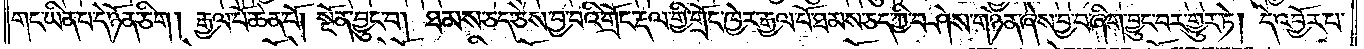གང་ཡིན་པ་དེ་ཉོན་ཅིག །རྒྱལ་པོ་ཆེན་པོ། སྔོན་བྱུང་བ། ཐམས་ཅད་ཅེས་བྱ་བའི་གྲོང་རྡལ་གྱི་གྲོང་ཁྱེར་རྒྱལ་པོ་ཐམས་ཅད་ཀྱི་བཤེས་གཉེན་ཞེས་བྱ་བ་ཞིག་བྱུང་བར་གྱུར་ཏེ། དེ་འབྱོར་པ་
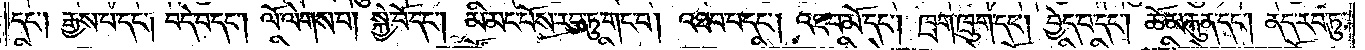དང༌། རྒྱས་པ་དང༌། བདེ་བ་དང༌། ལོ་ལེགས་པ། སྐྱེ་བོ་དང༌། མི་མང་པོས་རབ་ཏུ་གང་བ། འཐབ་པ་དང༌། འཐབ་མོ་དང༌། ཁྲག་ཁྲུག་དང༌། བྱེད་པ་དང༌། ཆོམ་རྐུན་དང༌། ནད་རབ་ཏུ་
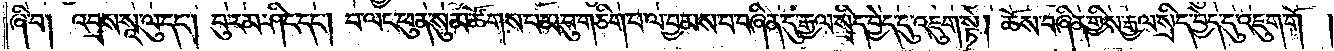ཞི་བ། འབྲས་སཱ་ལུ་དང༌། བུ་རམ་ཤིང་དང༌། བ་ལང་ཕུན་སུམ་ཚོགས་པ་མ་བུ་གཅིག་པ་ལ་བྱམས་པ་བཞིན་དུ་རྒྱལ་སྲིད་བྱེད་དུ་འཇུག་སྟེ། ཆོས་བཞིན་གྱིས་རྒྱལ་སྲིད་བྱེད་དུ་འཇུག་གོ།
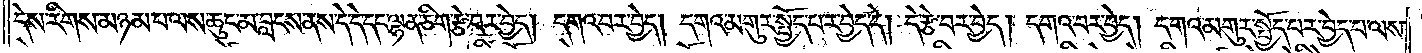དེས་རིགས་མཉམ་པ་ལས་ཆུང་མ་བླངས་ནས་དེ་དེ་དང་ལྷན་ཅིག་རྩེ་བར་བྱེད། དགའ་བར་བྱེད། དགའ་མགུར་སྤྱོད་པར་བྱེད་དེ། དེ་རྩེ་བར་བྱེད། དགའ་བར་བྱེད། དགའ་མགུར་སྤྱོད་པར་བྱེད་པ་ལས་
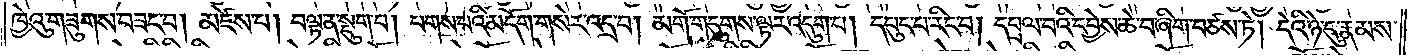ཁྱེའུ་གཟུགས་བཟང་བ། མཛེས་པ། བལྟ་ན་སྡུག་པ། པགས་པའི་མདོག་གསེར་འདྲ་བ། མགོ་གདུགས་ལྟར་འདུག་པ། དཔུང་པ་རིང་བ། དཔྲལ་བའི་དབྱེས་ཆེ་བ་ཞིག་བཙས་ཏེ། དེའི་ཉེ་དུ་རྣམས་
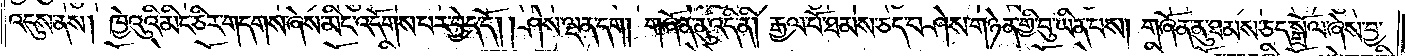འདུས་ནས། ཁྱེའུའི་མིང་ཅིར་གདགས་ཞེས་མིང་འདོགས་པར་བྱེད་དོ། །ཤེས་ལྡན་དག །གཞོན་ནུ་འདི་ནི། རྒྱལ་པོ་ཐམས་ཅད་བཤེས་གཉེན་གྱི་བུ་ཡིན་པས། གཞོན་ནུ་ཐམས་ཅད་སྒྲོལ་ཞེས་བྱ་
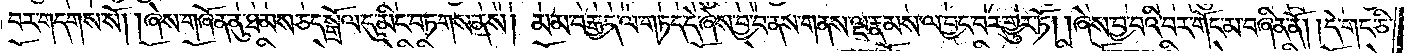བར་གདགས་སོ། །ཞེས་གཞོན་ནུ་ཐམས་ཅད་སྒྲོལ་དུ་མིང་བཏགས་ནས། མ་མ་བརྒྱད་ལ་གཏད་དེ་ཞེས་བྱ་བ་ནས་གནས་ལྔ་རྣམས་ལ་བྱང་བར་གྱུར་ཏོ། །ཞེས་བྱ་བའི་བར་གོང་མ་བཞིན་ནོ། །དེ་གང་ཅི་
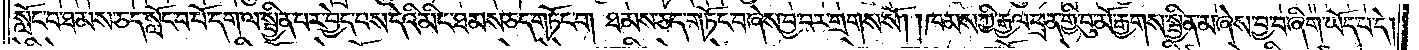སློང་བ་ཐམས་ཅད་སློང་བ་པོ་དག་ལ་སྦྱིན་པར་བྱེད་པས་དེའི་མིང་ཐམས་ཅད་གཏོང་བ། ཐམས་ཅད་གཏོང་བ་ཞེས་བྱ་བར་གྲགས་སོ། །ཁམས་ཀྱི་རྒྱལ་ཕྲན་གྱི་བུ་མོ་རྒྱགས་སྦྱིན་མ་ཞེས་བྱ་བ་ཞིག་ཡོད་པ་དེ།
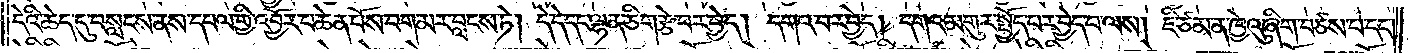དེའི་ཆེད་དུ་བསླངས་ནས་དཔལ་གྱི་འབྱོར་པ་ཆེན་པོས་བག་མར་བླངས་ཏེ། དེ་དེ་དང་ལྷན་ཅིག་རྩེ་བར་བྱེད། དགའ་བར་བྱེད། དགའ་མགུར་སྤྱོད་པར་བྱེད་པ་ལས། ཇི་ཙམ་ན་ཁྱེའུ་ཞིག་བཙས་པ་དང༌།
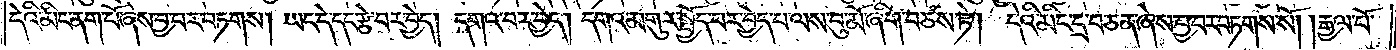དེའི་མིང་ནག་པོ་ཞེས་བྱ་བར་བཏགས། ཡང་དེ་དང་རྩེ་བར་བྱེད། དགའ་བར་བྱེད། དགའ་མགུར་སྤྱོད་པར་བྱེད་པ་ལས་བུ་མོ་ཞིག་བཙས་ཏེ། དེའི་མིང་དྲ་བ་ཅན་ཞེས་བྱ་བར་བཏགས་སོ། །རྒྱལ་པོ་
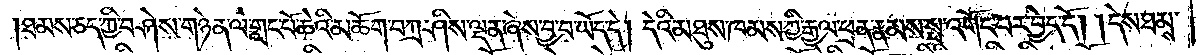ཐམས་ཅད་ཀྱི་བཤེས་གཉེན་ལ་གླང་པོ་ཆེའི་མཆོག་བཀྲ་ཤིས་ལྡན་ཞེས་བྱ་བ་ཡོད་དེ། དེའི་མཐུས་ཁམས་ཀྱི་རྒྱལ་ཕྲན་རྣམས་སྤ་འགོང་བར་བྱེད་དོ། །དེས་ཐམས་
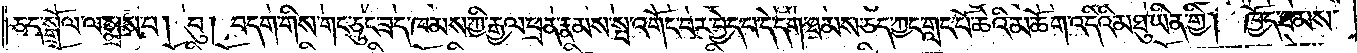ཅད་སྒྲོལ་ལ་སྨྲས་པ། བུ། བདག་གིས་གང་ཅུང་ཟད་ཁམས་ཀྱི་རྒྱལ་ཕྲན་རྣམས་སྤ་འགོང་བར་བྱེད་པ་དེ་དག་ཐམས་ཅད་ཀྱང་གླང་པོ་ཆེའི་མཆོག་འདིའི་མཐུ་ཡིན་གྱི། ཁྱོད་ཐམས་
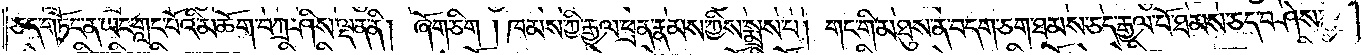ཅད་གཏོང་ན་ཡང་གླང་པོའི་མཆོག་བཀྲ་ཤིས་ལྡན་ནི། ཞོག་ཅིག །ཁམས་ཀྱི་རྒྱལ་ཕྲན་རྣམས་ཀྱིས་སྨྲས་པ། གང་གི་མཐུས་ན་བདག་ཅག་ཐམས་ཅད་རྒྱལ་པོ་ཐམས་ཅད་བཤེས་
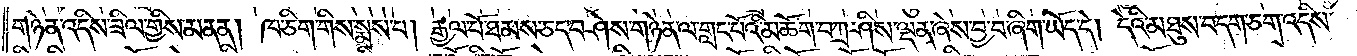གཉེན་འདིས་ཟིལ་གྱིས་མནན། ཁ་ཅིག་གིས་སྨྲས་པ། རྒྱལ་པོ་ཐམས་ཅད་བཤེས་གཉེན་ལ་གླང་པོའི་མཆོག་བཀྲ་ཤིས་ལྡན་ཞེས་བྱ་བ་ཞིག་ཡོད་དེ། དེའི་མཐུས་བདག་ཅག་འདིས་
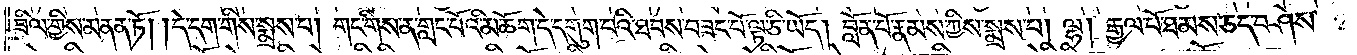ཟིལ་གྱིས་མནན་ཏོ། །དེ་དག་གིས་སྨྲས་པ། གང་གིས་ན་གླང་པོའི་མཆོག་དེ་དགུག་པའི་ཐབས་བཟང་པོ་ལྟ་ཅི་ཡོད། བློན་པོ་རྣམས་ཀྱིས་སྨྲས་པ། ལྷ། རྒྱལ་པོ་ཐམས་ཅད་བཤེས་
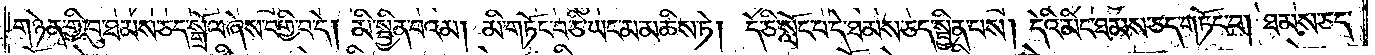གཉེན་གྱི་བུ་ཐམས་ཅད་སྒྲོལ་ཞེས་བགྱི་བ་དེ། མི་སྦྱིན་པའམ། མི་གཏོང་བ་ཅི་ཡང་མ་མཆིས་ཏེ། དེ་ཅི་སློང་པ་དེ་ཐམས་ཅད་སྦྱིན་པས། དེའི་མིང་ཐམས་ཅད་གཏོང་བ། ཐམས་ཅད་
